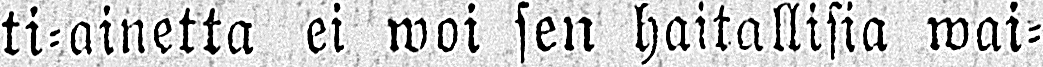ti-ainetta ei woi sen haitallisia wai-
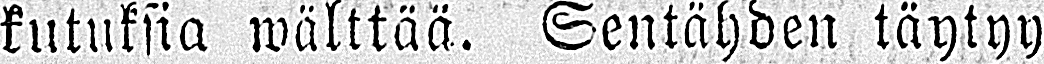kutuksia wälttää. Sentähden täytyy
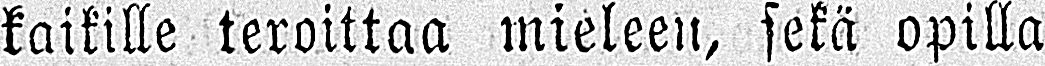kaikille teroittaa mieleen, sekä opilla
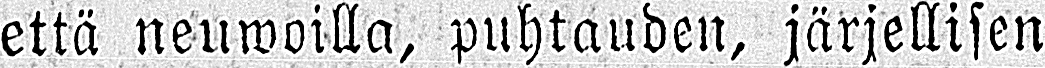että neuwoilla, puhtauden, järjellisen
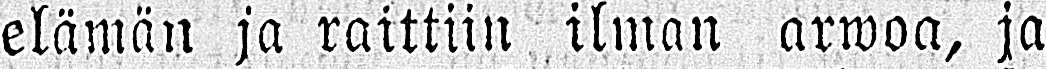elämän ja raittiin ilman arwoa, ja
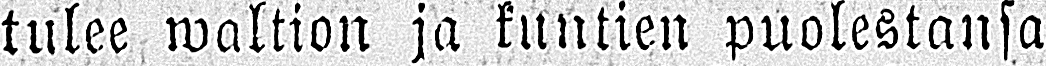tulee waltion ja kuntien puolestansa
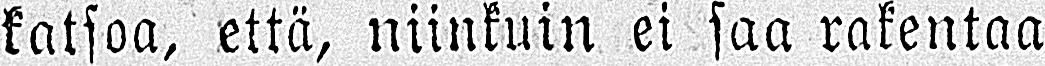katsoa, että, niinkuin ei saa rakentaa
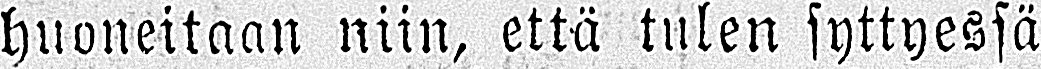huoneitaan niin, että tulen syttyessä
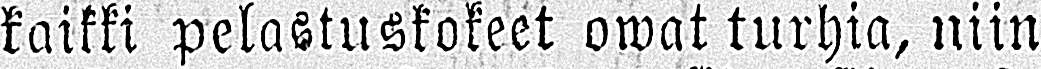kaikki pelastuskokeet owat turhia, niin
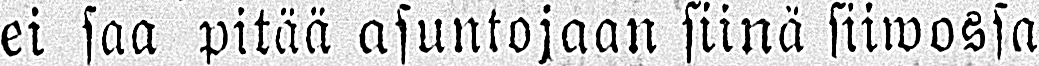ei saa pitää asuntojaan siinä siiwossa
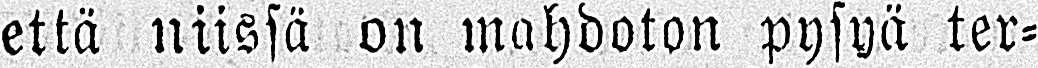että niissä on mahdoton pysyä ter-
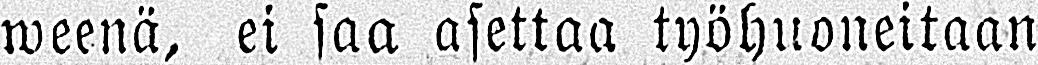weenä, ei saa asettaa työhuoneitaan
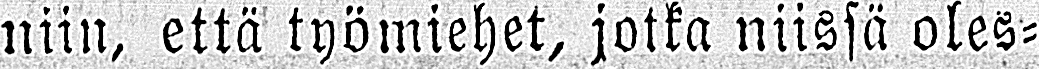niin, että työmiehet, jotka niissä oles-
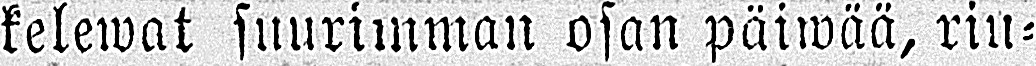kelewat suurimman osan päiwää, riu-
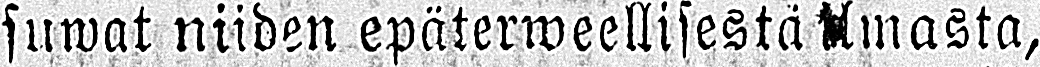suwat niiden epäterweellisestä ilmasta,
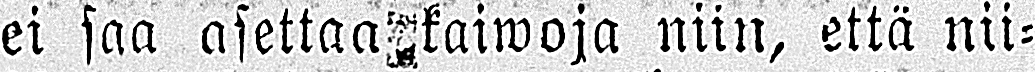ei saa asettaa kaiwoja niin, että nii-
